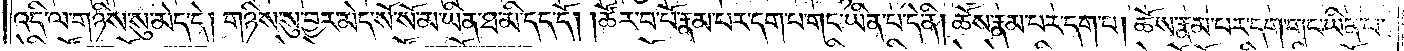འདི་ལ་གཉིས་སུ་མེད་དེ། གཉིས་སུ་བྱར་མེད་སོ་སོ་མ་ཡིན་ཐ་མི་དད་དོ། །ཚོར་བ་པོ་རྣམ་པར་དག་པ་གང་ཡིན་པ་དེ་ནི། ཆོས་རྣམ་པར་དག་པ། ཆོས་རྣམ་པར་དག་པ་གང་ཡིན་པ་
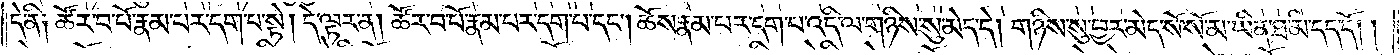དེ་ནི༑ ཚོར་བ་པོ་རྣམ་པར་དག་པ་སྟེ། དེ་ལྟར་ན། ཚོར་བ་པོ་རྣམ་པར་དག་པ་དང༌། ཆོས་རྣམ་པར་དག་པ་འདི་ལ་གཉིས་སུ་མེད་དེ། གཉིས་སུ་བྱར་མེད་སོ་སོ་མ་ཡིན་ཐ་མི་དད་དོ། །
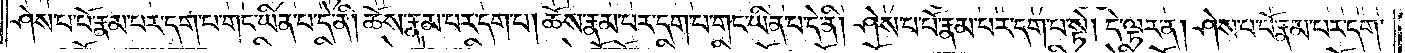ཤེས་པ་པོ་རྣམ་པར་དག་པ་གང་ཡིན་པ་དེ་ནི། ཆོས་རྣམ་པར་དག་པ། ཆོས་རྣམ་པར་དག་པ་གང་ཡིན་པ་དེ་ནི། ཤེས་པ་པོ་རྣམ་པར་དག་པ་སྟེ། དེ་ལྟར་ན། ཤེས་པ་པོ་རྣམ་པར་དག་
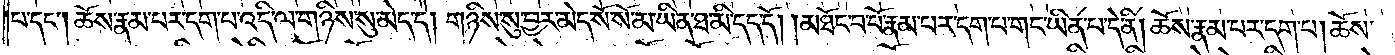པ་དང༌། ཆོས་རྣམ་པར་དག་པ་འདི་ལ་གཉིས་སུ་མེད་དེ། གཉིས་སུ་བྱར་མེད་སོ་སོ་མ་ཡིན་ཐ་མི་དད་དོ། །མཐོང་བ་པོ་རྣམ་པར་དག་པ་གང་ཡིན་པ་དེ་ནི། ཆོས་རྣམ་པར་དག་པ། ཆོས་
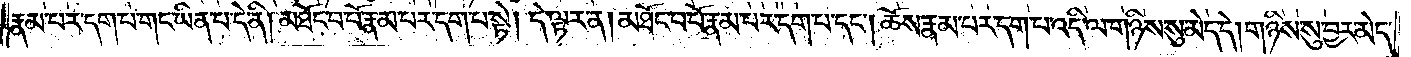རྣམ་པར་དག་པ་གང་ཡིན་པ་དེ་ནི། མཐོང་བ་པོ་རྣམ་པར་དག་པ་སྟེ། དེ་ལྟར་ན། མཐོང་བ་པོ་རྣམ་པར་དག་པ་དང༌། ཆོས་རྣམ་པར་དག་པ་འདི་ལ་གཉིས་སུ་མེད་དེ། གཉིས་སུ་བྱར་མེད་
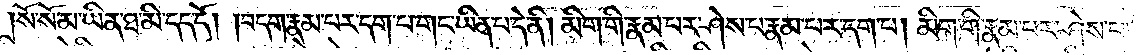སོ་སོ་མ་ཡིན་ཐ་མི་དད་དོ། །བདག་རྣམ་པར་དག་པ་གང་ཡིན་པ་དེ་ནི། མིག་གི་རྣམ་པར་ཤེས་པ་རྣམ་པར་དག་པ། མིག་གི་རྣམ་པར་ཤེས་པ་
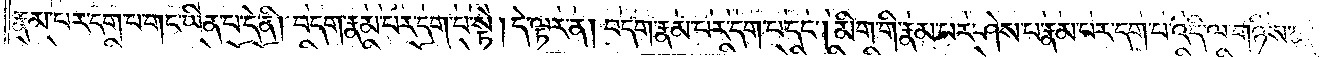རྣམ་པར་དག་པ་གང་ཡིན་པ་དེ་ནི། བདག་རྣམ་པར་དག་པ་སྟེ། དེ་ལྟར་ན། བདག་རྣམ་པར་དག་པ་དང༌། མིག་གི་རྣམ་པར་ཤེས་པ་རྣམ་པར་དག་པ་འདི་ལ་གཉིས་སུ་
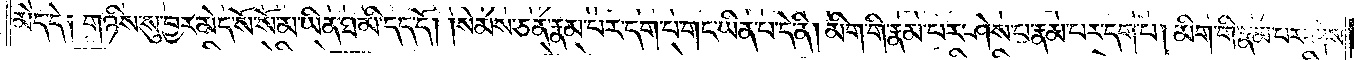མེད་དེ༑ གཉིས་སུ་བྱར་མེད་སོ་སོ་མ་ཡིན་ཐ་མི་དད་དོ། །སེམས་ཅན་རྣམ་པར་དག་པ་གང་ཡིན་པ་དེ་ནི། མིག་གི་རྣམ་པར་ཤེས་པ་རྣམ་པར་དག་པ། མིག་གི་རྣམ་པར་ཤེས་
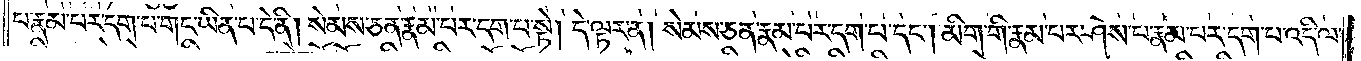པ་རྣམ་པར་དག་པ་གང་ཡིན་པ་དེ་ནི། སེམས་ཅན་རྣམ་པར་དག་པ་སྟེ། དེ་ལྟར་ན། སེམས་ཅན་རྣམ་པར་དག་པ་དང༌། མིག་གི་རྣམ་པར་ཤེས་པ་རྣམ་པར་དག་པ་འདི་ལ་
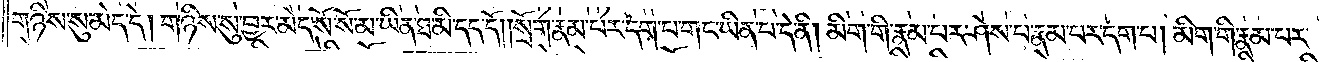གཉིས་སུ་མེད་དེ། གཉིས་སུ་བྱར་མེད་སོ་སོ་མ་ཡིན་ཐ་མི་དད་དོ། །སྲོག་རྣམ་པར་དག་པ་གང་ཡིན་པ་དེ་ནི། མིག་གི་རྣམ་པར་ཤེས་པ་རྣམ་པར་དག་པ། མིག་གི་རྣམ་པར་
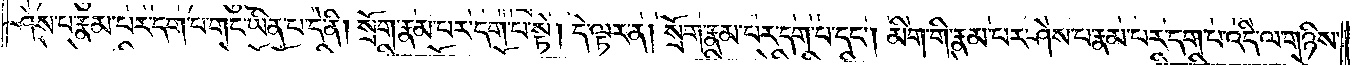ཤེས་པ་རྣམ་པར་དག་པ་གང་ཡིན་པ་དེ་ནི། སྲོག་རྣམ་པར་དག་པ་སྟེ། དེ་ལྟར་ན། སྲོག་རྣམ་པར་དག་པ་དང༌། །མིག་གི་རྣམ་པར་ཤེས་པ་རྣམ་པར་དག་པ་འདི་ལ་གཉིས་
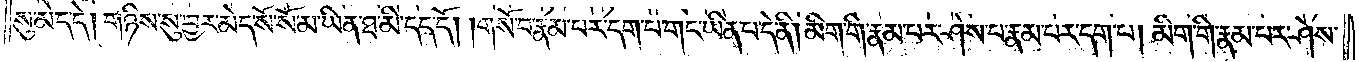སུ་མེད་དེ། གཉིས་སུ་བྱར་མེད་སོ་སོ་མ་ཡིན་ཐ་མི་དད་དོ། །གསོ་བ་རྣམ་པར་དག་པ་གང་ཡིན་པ་དེ་ནི། མིག་གི་རྣམ་པར་ཤེས་པ་རྣམ་པར་དག་པ། མིག་གི་རྣམ་པར་ཤེས་
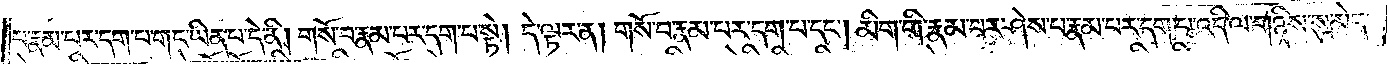པ་རྣམ་པར་དག་པ་གང་ཡིན་པ་དེ་ནི། གསོ་བ་རྣམ་པར་དག་པ་སྟེ། དེ་ལྟར་ན། གསོ་བ་རྣམ་པར་དག་པ་དང༌། མིག་གི་རྣམ་པར་ཤེས་པ་རྣམ་པར་དག་པ་འདི་ལ་གཉིས་སུ་མེད་
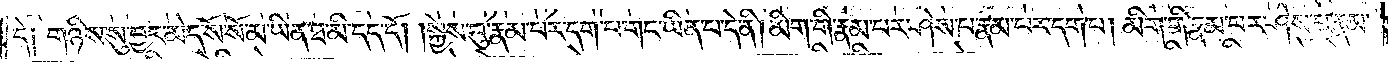དེ༑ གཉིས་སུ་བྱར་མེད་སོ་སོ་མ་ཡིན་ཐ་མི་དད་དོ། །སྐྱེས་བུ་རྣམ་པར་དག་པ་གང་ཡིན་པ་དེ་ནི། མིག་གི་རྣམ་པར་ཤེས་པ་རྣམ་པར་དག་པ། མིག་གི་རྣམ་པར་ཤེས་པ་རྣམ་
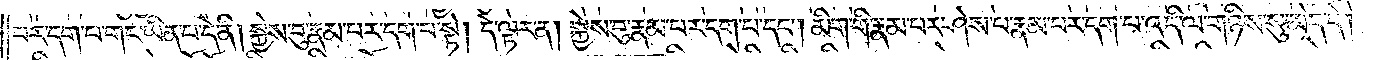པར་དག་པ་གང་ཡིན་པ་དེ་ནི། སྐྱེས་བུ་རྣམ་པར་དག་པ་སྟེ། དེ་ལྟར་ན། སྐྱེས་བུ་རྣམ་པར་དག་པ་དང༌། མིག་གི་རྣམ་པར་ཤེས་པ་རྣམ་པར་དག་པ་འདི་ལ་གཉིས་སུ་མེད་དེ།
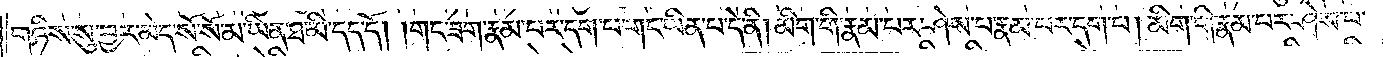གཉིས་སུ་བྱར་མེད་སོ་སོ་མ་ཡིན་ཐ་མི་དད་དོ། །གང་ཟག་རྣམ་པར་དག་པ་གང་ཡིན་པ་དེ་ནི། མིག་གི་རྣམ་པར་ཤེས་པ་རྣམ་པར་དག་པ། མིག་གི་རྣམ་པར་ཤེས་པ་
